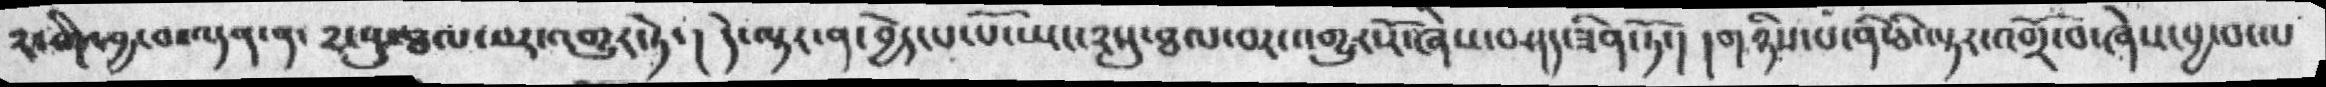༢་གི་བྱ་བ་ལྡན་ན་ ༢་སུ་ཐལ་བར་འགྱུར་ཏེ་།  དེ་ལྟར་ན་བྱེད་པ་པོ་ཡང་༢སུ་ཐལ་བར་འགྱུར་རོ་ཞེས་བཤད་ཟིན་ཏོ་།  །གཉིས་པ་ནི་ཅི་ལྟར་འགྲོ་བ་ཞེས་བྱ་བ་ལ་
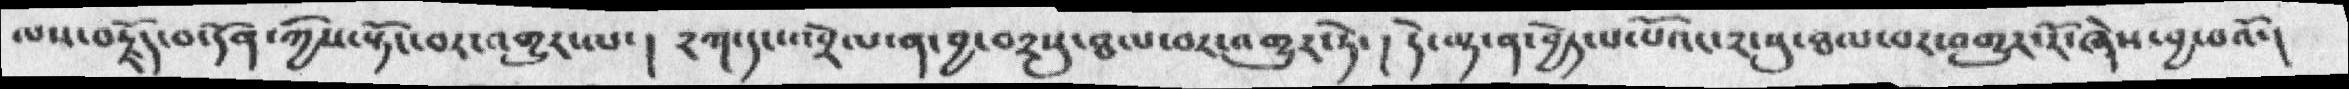ལས་བརྗོད་བ་དོན་ཀྱིས་སྟོང་བར་འགྱུར་ལ་། ༢ཀ་དང་འབྲེལ་ན་བྱ་བ༢སུ་ཐལ་བར་འགྱུར་ཏེ་། དེ་ལྟ་ན་བྱེད་པ་པོའང་༢་སུ་ཐལ་བར་འགྱུར་རོ་ཞེས་བྱ་བའོ་།
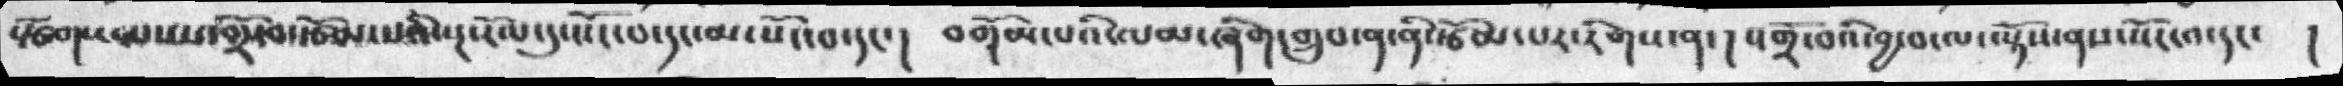སྩོགས་པས་འགྲོ་བ་རྩོམ་པའི་སྔ་རོལ་དུ་སོང་བ་དང་མ་སོང་བ་དང་།    བགོམ་པའི་ལམ་ཞིག་གྲུབ་ན་ནི་རྩོམ་པར་རིགས་ན་།  འགྲོ་བའི་བྱ་བ་ལ་ལྟོས་ནས་སོང་བ་དང་ །
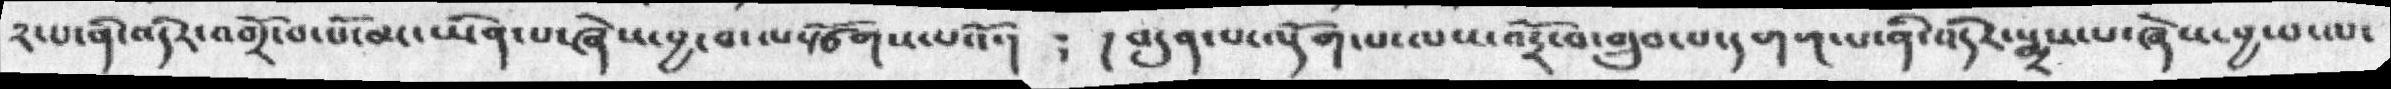༢་པ་ནི་འདིར་འགྲོ་བ་པོ་མ་ཡིན་པ་ཞེས་བྱ་བ་ལསྩོགས་པའོ་། ༴  ། བདུན་པ་ལྡོག་པ་ལས་འདྲོ་བ་གྲུབ་པ་དགག་པ་ནི་འདིར་སྨྲས་པ་ཞེས་བྱ་བ་ལ་
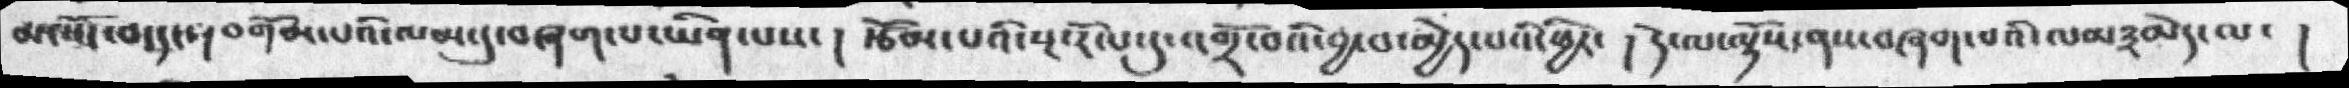མ་སོང་བ་དང་།  བགོམ་པའི་ལམ་དུ་གཞག་པ་ཡིན་པས་ ། རྩོམ་པའི་སྔ་རོལ་དུ་འགྲོ་བའི་བྱ་བ་མྱེད་པའི་ཕྱིར་   ། དེ་ལ་ལྟོས་ནས་བཞག་པའི་ལམ་༣མེད་ལ་   །
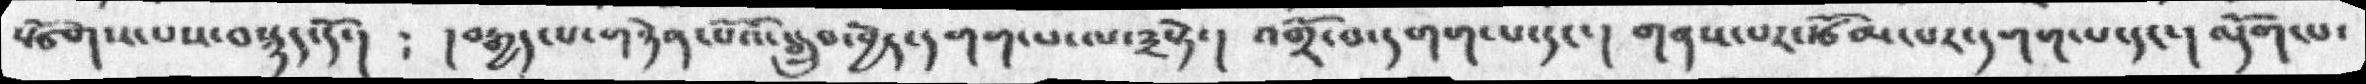སྩོགས་པས་བསྙད་དོ་།   ༴   །བརྒྱད་པ་གཉེན་པོའི་སྒྲུབ་བྱེད་དགག་པ་ལ་༣སྟེ་།   འགྲོ་བ་དགག་པ་དང་།  གནས་པར་རྩོམ་པར་དགག་པ་དང་།  འདོག་པ་
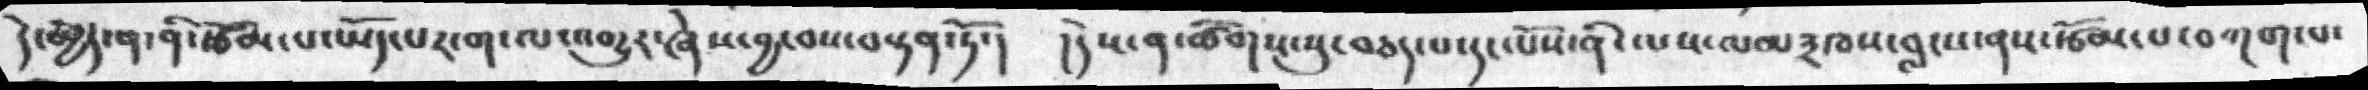དེ་མྱེད་ན་ནི་རྩོམ་པ་ཡོད་པར་ག་ལ་འགྱུར་ཞེས་བྱ་བས་བསྟན་ཏོ་།   །དེས་ན་ཚིགས་སུ་བཅད་པ་དང་པོས་ནི་ལས་ལམ༣ཁས་བླངས་ནས་རྩོམ་པ་བཀག་པ་
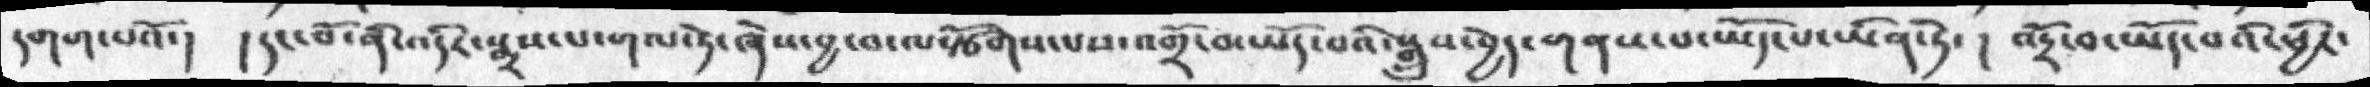དགག་པའོ་།  །དང་པོ་ནི་འདིར་སྨྲས་པ་གལ་ཏེ་ཞེས་བྱ་བ་ལསྩོགས་པས་འགྲོ་བ་ཡོད་པའི་སྒྲུབ་བྱེད་གནས་པ་ཡོད་པ་ཡིན་ཏེ་། འདྲོ་བ་ཡོད་པའི་ཕྱིར་
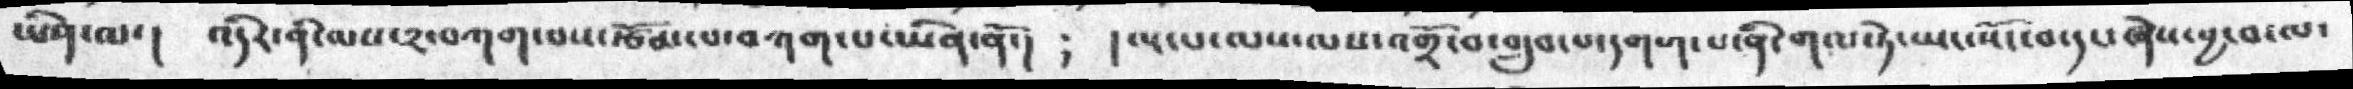ཡིན་ལ་།  འདིར་ནི་ལས་༢་བཀག་བས་རྩོམ་པ་བཀག་པ་ཡིན་ན་ོ། ༴ །ལ་པ་ལས་ལས་འགྲོ་བ་གྲུབ་པ་དགག་པ་ནི་གལ་ཏེ་ཡང་སོང་བ་དང་ཞེས་བྱ་བ་ལ་
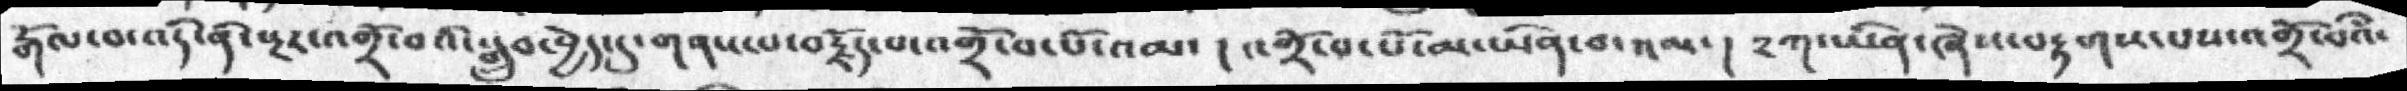རྒོལ་བ་འདི་ནི་སྔར་འགྲོ་བའི་སྒྲུབ་བྱེད་དུ་གནས་པ་བརྗོད་པ་འགྲོ་བ་པོ་འམ་། འགྲོ་བ་པོ་མ་ཡིན་བ་འམ་། ༢ཀ་ཡིན་ཞེས་བརྟགས་པས་འགྲོ་བའྀ་
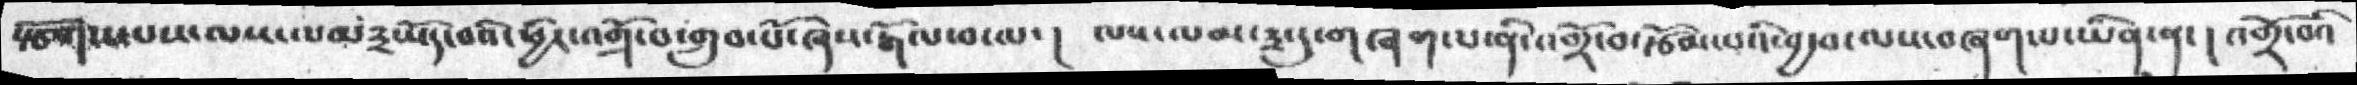སྩོགས་པས་ལས་ལམ༣ཡོད་པའི་ཕྱིར་འགྲོ་བ་གྲུབ་པོ་ཞེས་རྒོལ་བ་ལ་།  ལས་ལམ་༣་དུ་གཞག་པ་ནི་འགྲོ་བ་རྩོམ་པའི་བྱ་བ་ལས་བཞག་པ་ཡིན་ན་། འགྲོ་བའི
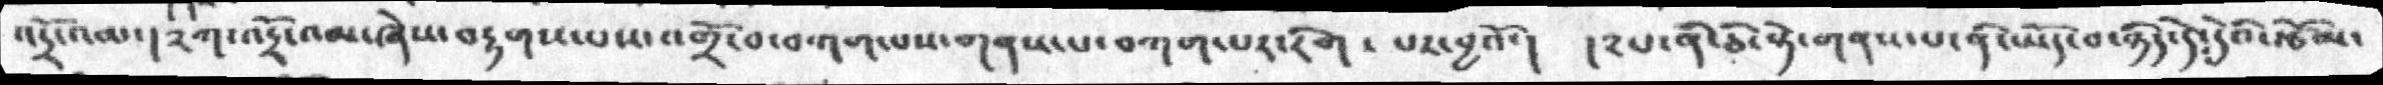འདྲོ་འམ་། ༢ཀ་འདྲོ་འམ་ཞེས་བརྟགས་པས་འགྲོ་བ་བཀག་པས་གནས་པ་བཀག་པར་རིག་པར་བྱའོ་།  །༢པ་ནི་ཅི་སྟེ་གནས་པ་ནི་ཡོད་བ་ཉིད་དེ་དེའི་རྩོམ་
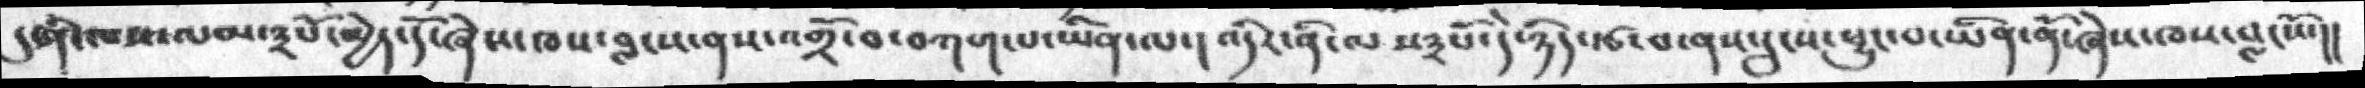དུ་ནི་ལས་ལམ་༣པོ་མྱེད་དོ་ཞེས་ཁས་བླངས་ནས་འགྲོ་བ་བཀག་པ་ཡིན་ལ་། འདིར་ནི་ལས༣པོ་དེ་ཉིད་རྩ་བ་ནས་དྲུངས་ཕྱུང་པ་ཡིན་ནོ་ཞེས་ཁས་བླངསོ་།།
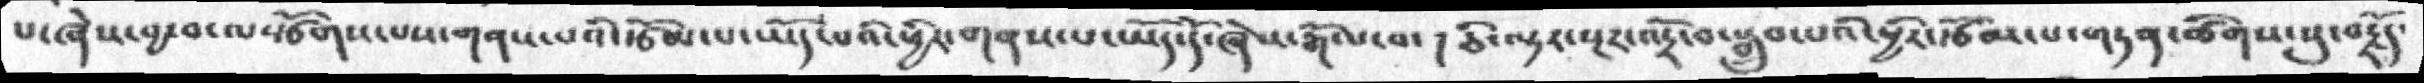པ་ཞེས་བྱ་བ་ལསྩོགས་པས་གནས་པའི་རྩོམ་པ་ཡོད་པའི་ཕྱིར་གནས་པ་ཡོད་དོ་ཞེས་རྒོལ་བ་།  ཅི་ལྟར་སྔར་འདྲོ་བ་སྒྲུབ་པའི་ཕྱིར་རྩོམ་པ་གཏན་ཚིགས་སུ་བརྗོད་
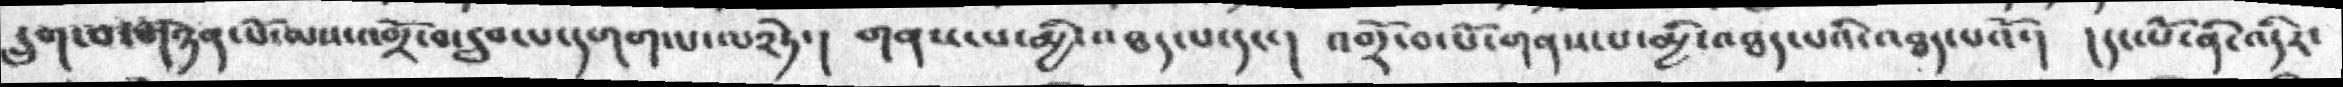དྲུག་བ་གཉེན་པོ་ལས་འགྲོ་བ་དྲུག་པ་དགག་པ་ལ༢ཏེ་།  གནས་པ་མྱི་འཐད་པ་དང་།  འགྲོ་བ་པོ་གནས་པ་མྱི་འཐད་པའི་འཐད་པའོ་། །དང་པོ་ནི་འདིར་
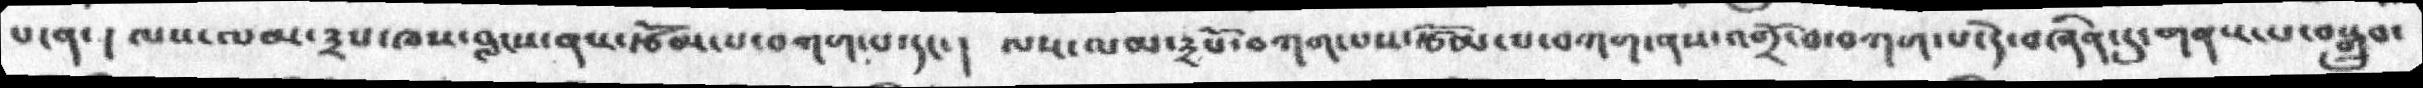པ་ན་། ལས་ལམ་༣པ་ཁས་བླངས་ནས་རྩོམ་པ་བཀག་པ་དང་། ལས་ལམ་༣པོ་བཀག་པས་རྩོམ་པ་བཀག་ནས་འགྲོ་བ་བཀག་པ་དེ་བཞིན་དུ་གནས་པ་བསྒྲུབ་
